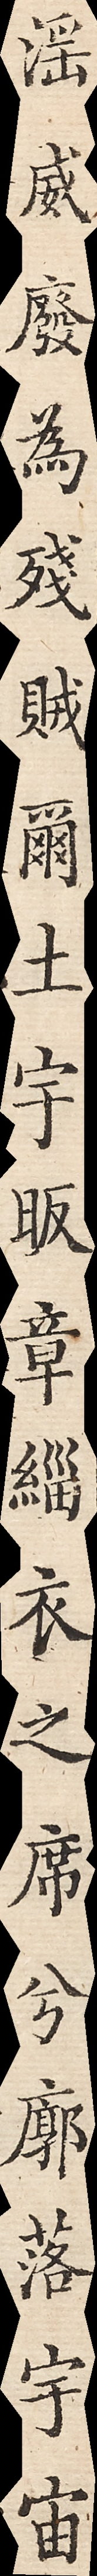淫威廢為殘賊爾土宇昄章緇衣之席兮廓落宇宙
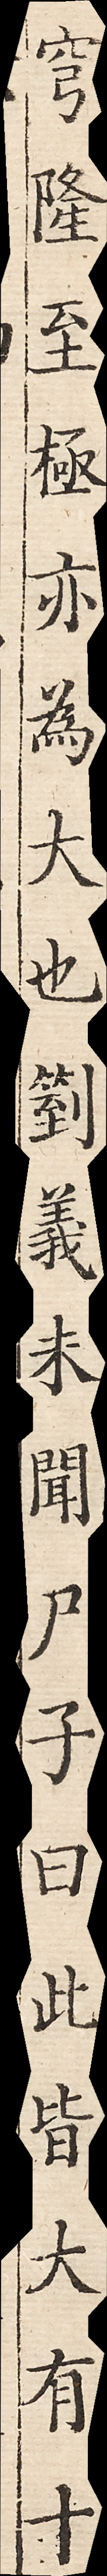穹隆至極亦為大也箌義未聞尸子曰此皆大有十
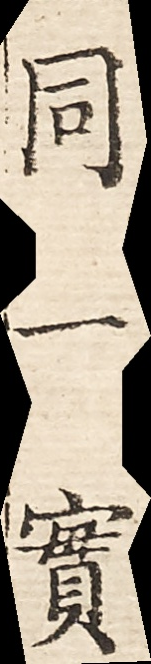同一實
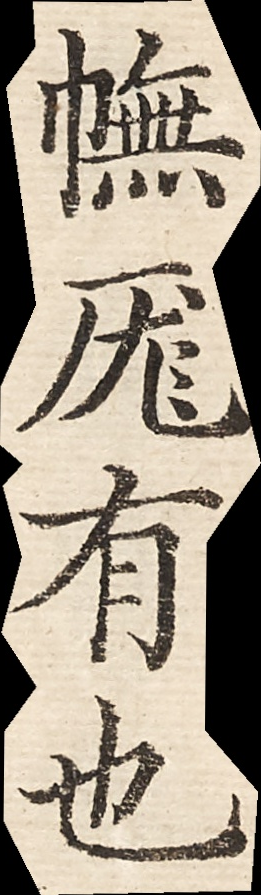幠厖有也
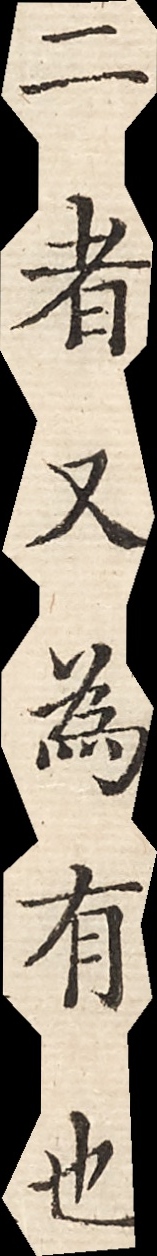二者又為有也
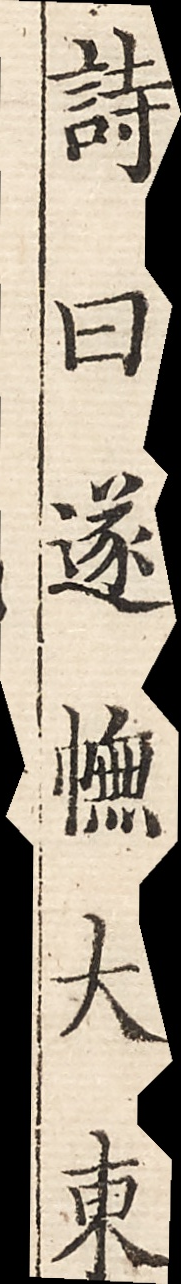詩曰遂幠大東
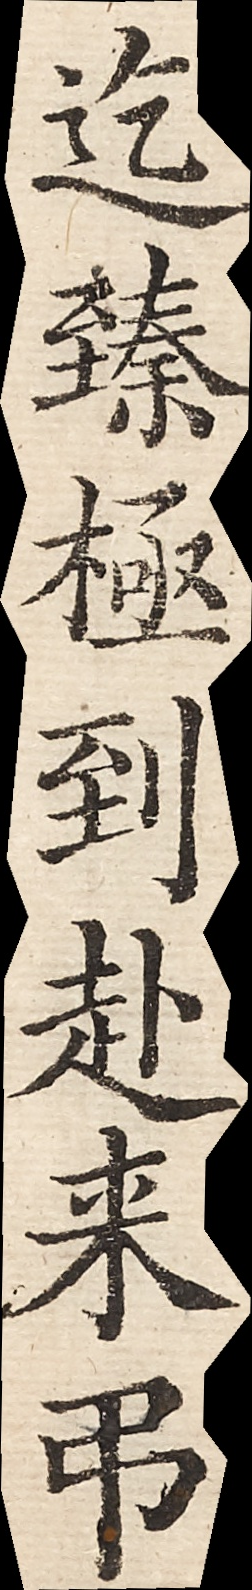迄臻極到赴來弔
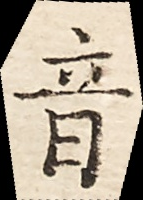昔
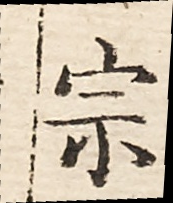宗
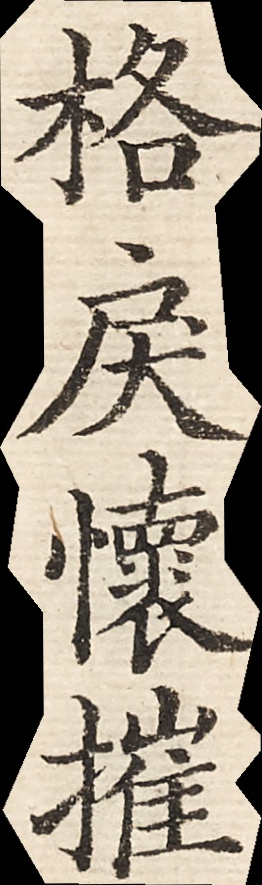格戾懷摧
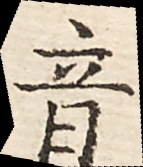音
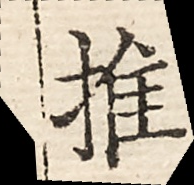推
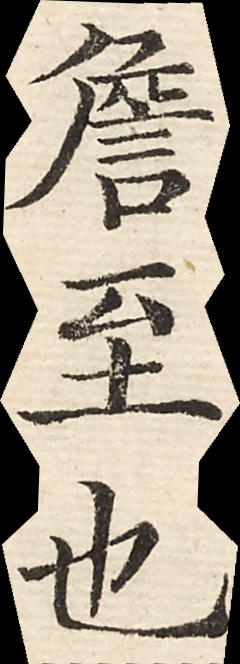詹至也
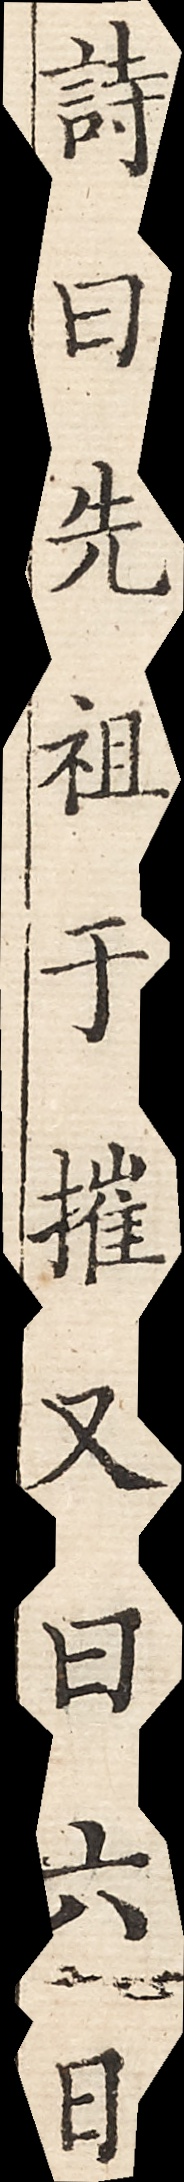詩曰先祖于摧又曰六日
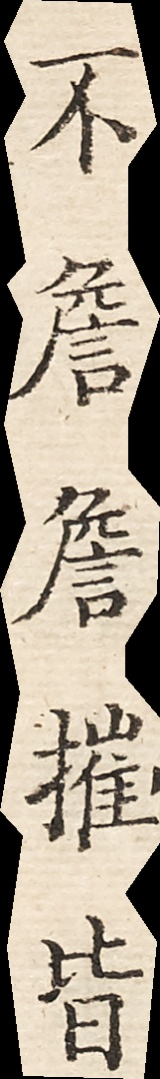不詹詹摧皆
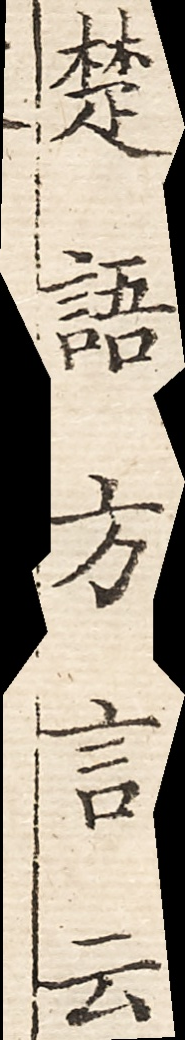楚語方言云
